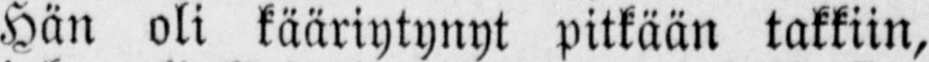Hän oli kääriytynyt pitkään takkiin,
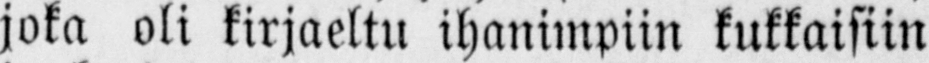joka oli kirjaeltu ihanimpiin kukkaisiin
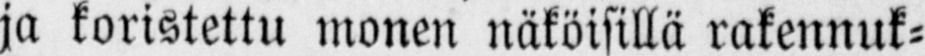ja koristettu monen näköisillä rakennuk-
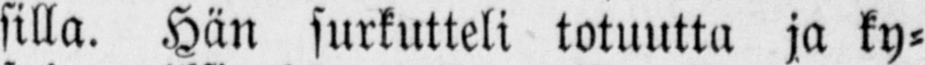silla. Hän surkutteli totuutta ja ky-
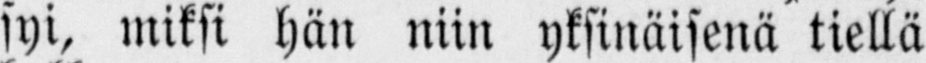syi, miksi hän niin yksinäisenä tiellä
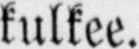kulkee.
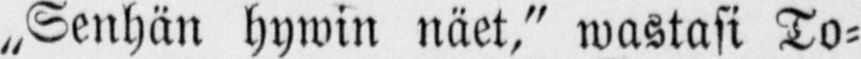„Senhän hywin näet," wastasi To-
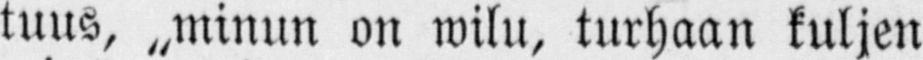tuus, „minun on wilu, turhaan kuljen
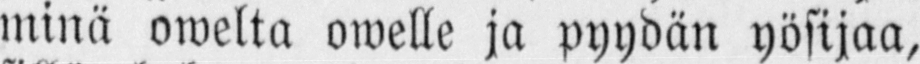minä owelta owelle ja pyydän yösijaa,
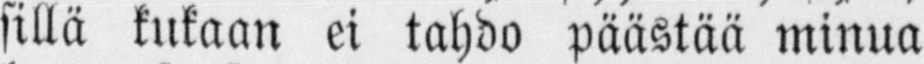sillä kukaan ei tahdo päästää minua
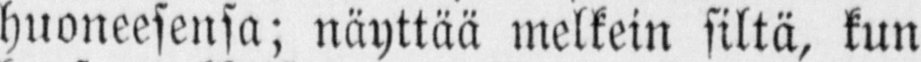huoneesensa; näyttää melkein siltä, kun
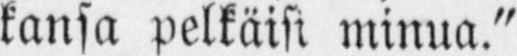kansa pelkäisi minua."
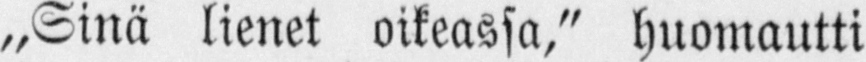„Sinä lienet oikeassa," huomautti
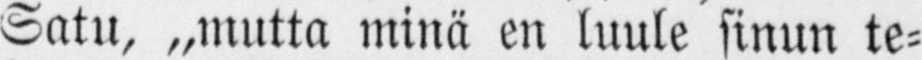Satu, „mutta minä en luule sinun te-
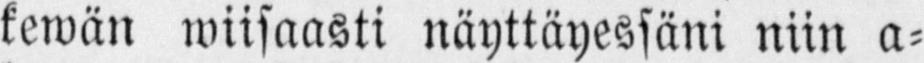kewän wiisaasti näyttäyessäni niin a-
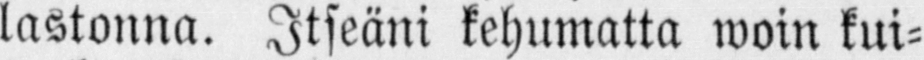lastonna. Itseäni kehumatta woin kui-
